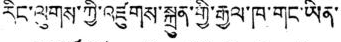རིང་ལུགས་ཀྱི་འཛུགས་སྐྲུན་གྱི་རྒྱལ་ཁ་གང་ཡིན་་
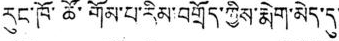རུང་ཁོ་ཚོ་གོམ་པ་རིམ་བགྲོད་ཀྱིས་རྨེག་མེད་དུ་་
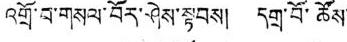འགྲོ་བ་གསལ་བོར་ཤེས་སྟབས། དགྲ་བོ་ཚོས་
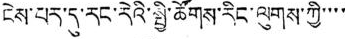ངེས་པར་དུ་རང་རེའི་སྤྱི་ཚོགས་རིང་ལུགས་ཀྱི་་་་
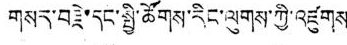གསར་བརྗེ་དང་སྤྱི་ཚོགས་རིང་ལུགས་ཀྱི་འཛུགས་
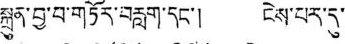སྐྲུན་བྱ་བ་གཏོར་བརླག་དང་། ངེས་པར་དུ་
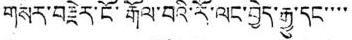གསར་བརྗེར་ངོ་རྒོལ་བའི་རོ་ལང་བྱེད་རྒྱུ་དང་་་་
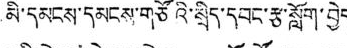མི་དམངས་དམངས་གཙོའི་སྲིད་དབང་རྩ་སློག་བྱེད
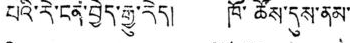པའི་རེ་ངན་བྱེད་རྒྱུ་རེད། ཁོ་ཚོས་དུས་ནམ་
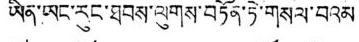ཡིན་ཡང་རུང་ཐབས་ལུགས་བཏོན་ཏེ་གསལ་བའམ
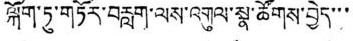ལྐོག་ཏུ་གཏོར་བརླག་ལས་འགུལ་སྣ་ཚོགས་བྱེད་་་
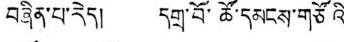བཞིན་པ་རེད། དགྲ་བོ་ཚོ་དམངས་གཙོའི་
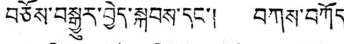བཅོས་བསྒྱུར་བྱེད་སྐབས་དང་། བཀས་བཀོད་
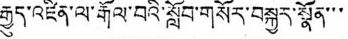རྒྱུད་འཛིན་ལ་རྒོལ་བའི་སློབ་གསོར་བསྐྱར་སྣོན་་་
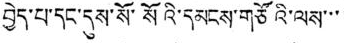བྱེད་པ་དང་དུས་སོ་སོའི་དམངས་གཙོའི་ལས་་་་
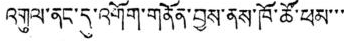འགུལ་ནང་དུ་འགོག་གནོན་བྱས་ནས་ཁོ་ཚོ་ཕམ་་་་
